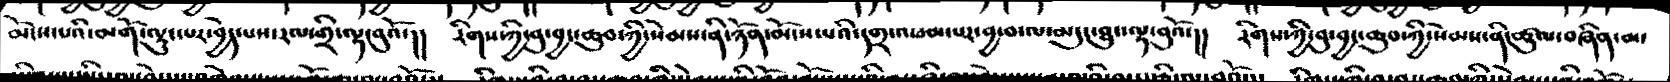མོངས་པའི་མགོ་ལྷུང་པར་བྱེད་པས་རལ་གྲི་ལྟ་བུའོ་།།  རིགས་ཀྱི་བུ་བྱང་ཆུབ་སེམས་ནི་ཉོན་མོངས་པའི་དགྲ་འཕམ་པར་བྱ་བ་ལ་མདུང་ཐུང་ལྟ་བུའོ་།།   རིགས་ཀྱི་བུ་བྱང་ཆུབ་ཀྱི་སེམས་ནི་ཚུལ་བཞིན་མ་
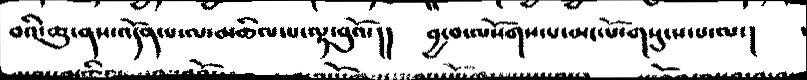བའི་ཆུ་ནས་འདོན་པ་ལ་མཆིལ་པ་ལྟ་བུའོ་།།   བྱ་བ་ལསོགས་པ་མང་པོ་གསུངས་པ་ལ་།
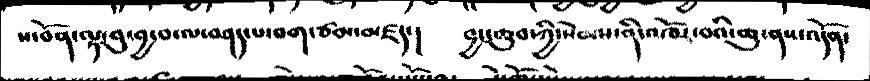ས་བོན་ལྟ་བུ་བྱ་བ་ལ་བཤད་པ་བག་ཙམ་མཛད་།   བྱང་ཆུབ་ཀྱི་སེམས་ནི་འཁོར་བའི་ཆུ་ནས་འདོན་
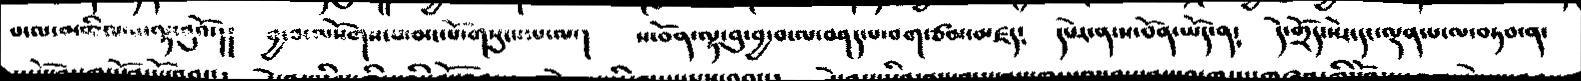པ་ལ་མཆིལ་པ་ལྟ་བའོ་།།   བྱ་བ་ལསོགས་པ་མང་པོ་གསུངས་པ་ལ་།    ས་བོན་ལྟ་བུ་བྱ་བ་ལ་བཤད་པ་བག་ཙམ་མཛད༴   དཔེར་ན་ས་བོན་ཡོད་ན༴   དེ་གྲོད་སེར་དང་ལྡན་པ་ལ་བཏབ་ན་
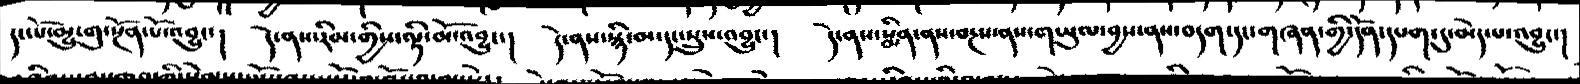དང་པོ་མྱུ་གུ་སྔོན་པོ་འབྱུང་།   དེ་ནས་རིམ་གྱིས་ལྟི་མོ་འབྱུང་།   དེ་ནས་སྙི་མ་དང་སྲུས་འབྱུང་།    དེ་ནས་སྨིན་ནས་བརྔས་ནས་གཡུལ་བྱས་ནས་བདག་དང་གཞན་གྱི་དོན་དཔག་དུ་མེད་པ་འབྱུང་།
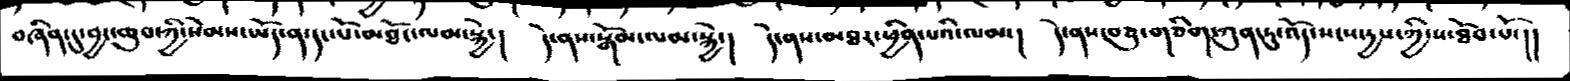བཞིན་དུ་བྱང་ཆུབ་ཀྱི་སེམས་ཡོད་ན་དང་པོ་མཐོང་ལམ་སྐྱེ་།    དེ་ནས་སྒོམ་ལམ་སྐྱེ་།   དེ་ནས་མཐར་ཕྱིན་པའི་ལམ་།   དེ་ནས་བཅུ་གཅིག་ཀུན་ཏུ་འོད་སངས་དྱས་ཀྱི་ས་ཐོབ་པའོ་།།
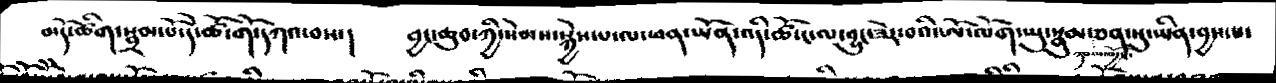མདོ་ཚིག་སྦྲམ་པོ་དེ་ཚོ་གོ་དཀའ་བས་།    བྱང་ཆུབ་ཀྱི་སེམས་སྐྱེས་པ་ལ་ཕན་ཡོན་འདི་ཚོ་ང་ལ་བྱུང་ཟེར་་བའི་ཨོ་ལོག་ཡུ་སྣུམ་ཉམས་མྱོང་ཅན་སུ་ཡིན་བྱས་པ་
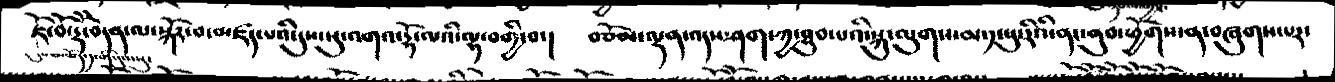ཇོ་བོ་རྡོ་བདེན་ལ་སྐོར་བ་མཛད་པའི་དུས་འགའ་རྡོ་ལའི་ལྷ་བགྱི་བ་།   བཅོམ་ལྡན་འདས་ཤག་ཀྱ་ཐུབ་པའི་སྐུ་ལུགས་པ་༡་སུ་རིའི་ནང་ནུབ་ཕྱོགས་ན་བཞུགས་པར་
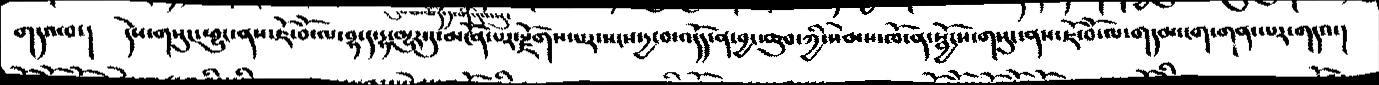གདའ་བ་།    དེས་གསུང་ཕྱུང་ནས་ཇོ་བོ་ལ་བྷ་ད་དྷ་མྱུར་དུ་མངོན་པར་རྫོགས་པར་སངས་དྱ་བ་འདོད་ན་བྱང་ཆུབ་ཀྱི་སེམས་ཁོ་ན་སྦྱོངས་གསུང་ནས་ཇོ་བོ་ལ་གདམ་ངག་གནང་པར་གདའ་།
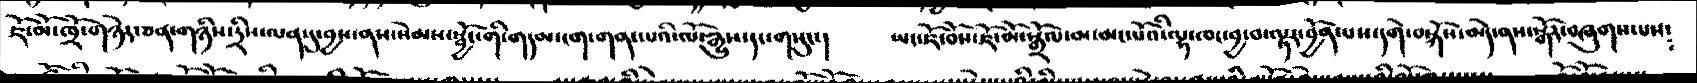ཇོ་མོ་ཁྲོ་གཉེར་ཅན་གཉིས་དྲིས་ལན་དུ་བྱས་ནས་སེམས་ནས་སེམས་སྦྱོང་གི་གདམ་ངག་གནང་པའི་ལོ་རྒྱུས་དང་གསུང་།   ཡང་ཇོ་བོས་ཇོ་མོ་སྒྲོལ་མ་མང་པོའི་ལྷ་ཁང་བྱ་བ་ལྟར་བྱོན་པས་དགེ་བསྐོས་མེད་སྒོར་བཞུགས་པས༴
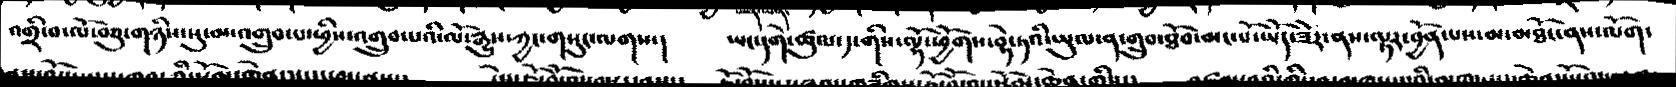འགྲི་བ་ལོ་བཅུ་གཉིས་སུ་མ་འགྲུབ་པ་ཕྱིས་འགྲུབ་པའི་ལོ་རྒྱུས་ཀྱང་གསུང་ལགས་།    ཡང་དགེ་ཚུལ་༡་གིས་ལྷོ་ཕྱོགས་བྷེ་ཏའི་ཡུལ་ན་གྲུབ་ཐོབ་མང་པོ་ཡོད་ཟེར་ནས་ལྟར་བྱོན་པས་མ་མཐོང་ནས་ལོག་
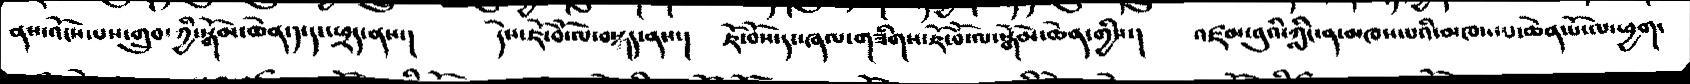ནས་མ་འོངས་པས་གྲུབ་ཀྱི་སྒོམ་ཆེན་༡་དང་ཕྲད་ནས་།   དེས་ཇོ་བོ་ལ་བསྐད་ནས་།   ཇོ་བོས་དང་ཞལ་གཟིགས་ཇོ་བོ་ལ་སྒོམ་ཆེན་གྱིས་།   འཛམ་བུའི་གླིང་ན་མཁས་པའི་མཁས་པ་ཆེན་པོ་ལ་ཕྱག་
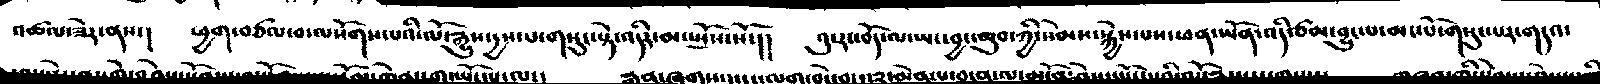འཚལ་ཟེར་ནས་།   ཕྱག་བཙལ་བ་ལསོགས་པའི་ལོ་རྒྱུས་དྱས་པ་གསུང་སྟེ་འདིར་མ་སྤོས་སོ་།།   འུ་རང་བོད་པ་ཡང་བྱང་ཆུབ་ཀྱི་སེམས་སྐྱེས་པས་ཕན་ཡོན་འདི་ཙམ་བྱུང་ཙམ་བྱུང་པ་མང་པོ་གསུང་པར་གདའ
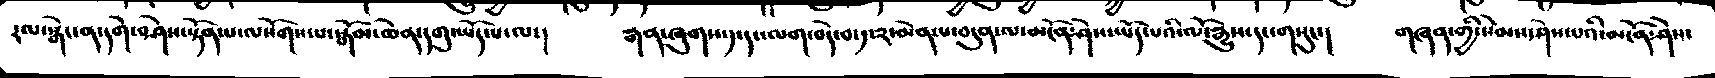རལ་སྒེང་ན་དགེ་བཤེས་སྟོན་པ་ལསོགས་པ་སྒོམ་ཆེན་དགུ་ཡོད་པ་ལ་།   རྒན་ཞུགས་༡་དང་ལག་བདེ་བ་༡་༢་མེན་པ་བདུན་ལ་མངོན་ཤེས་ཡོད་པའི་ལོ་རྒྱུས་དང་གསུང་།   གཞན་གྱི་སེམས་ཤེས་པའི་མངོན་ཤེས་
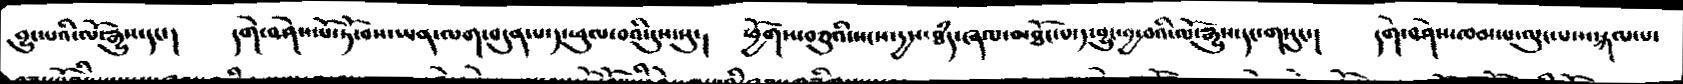བྱུང་པའི་ལོ་རྒྱུས་དང་།    དགེ་བཤེས་པོ་ཏོ་བས་ཡན་ལག་བདུན་པ་༡་ཕུལ་བའི་དུས་སུ་།   ཕྱོགས་བཅུའི་སངས་དྱས་ཐཾད་ཞལ་མཐོང་པ་༡་བྱུང་བྱ་བའི་ལོ་རྒྱུས་དང་གསུང་།   དགེ་བཤེས་ཁམ་པ་ལུང་པས་བསྐལ་པ་
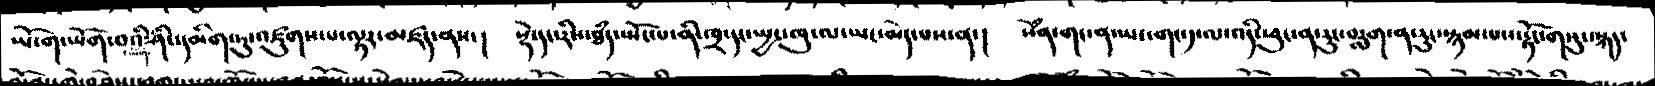ཡོ་ག་ཡོག་བའི་ཡག་ཤིང་དམིག་ཏུ་འཛུགས་པ་ལྟར་མཛད་ནས་།   སྡེ་དང་རིས་ཐཾད་སྤང་པ་ནི་ཁྲ་དང་སྤྱང་ཁུ་ལ་ཡང་མེད་པས་ན་།   སེཾན་གང་ན་ཡང་གང་༡་ལ་འདི་ཕུང་ན་རུང་བརླག་ན་རུང་སྙམ་པས་རྟོང་གསུང་སྐད་
